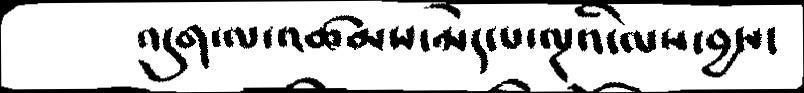འདུག་ལ་མཚམས་མེད་ལྔའི་ལས་བྱས་
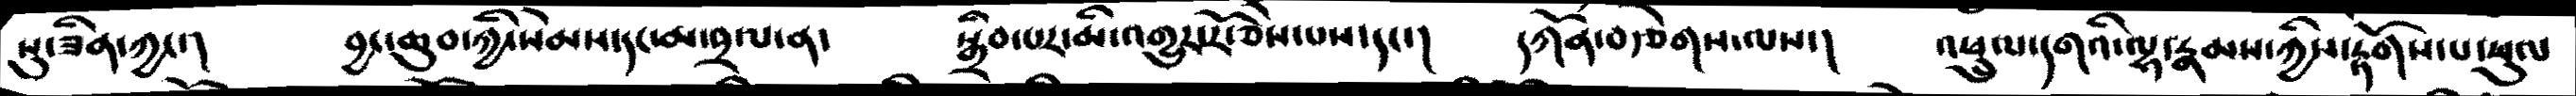སུ་ཟིན་ཀྱང་།     བྱང་ཆུབ་ཀྱི་སེམས་དང་མ་བྲལ་ན་      སྒྲིབ་པར་མི་འགྱུར་རོ་ཅེས་པས་དང་།    དཀོན་བརྩེགས་ལས་།  འཕྲུལ་དགའི་ལྷ་རྣམས་ཀྱིས་རྟོགས་པ་ཕུལ
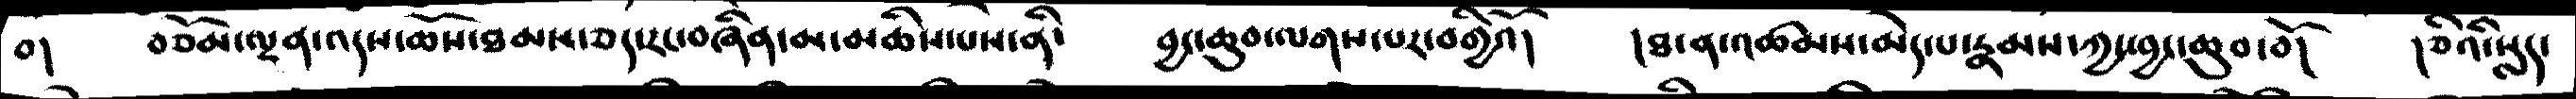བ།   བཅོམ་ལྡན་འདས་ཆོས་ཐམས་ཅད་རང་བཞིན་མ་མཆིས་པས་ནི་    བྱང་ཆུབ་ལགས་པར་བགྱིའོ།    །ཐ་ན་འཚམས་མེད་པ་རྣམས་ཀྱང་བྱང་ཆུབ་བོ།   །ཅིའི་སླད་
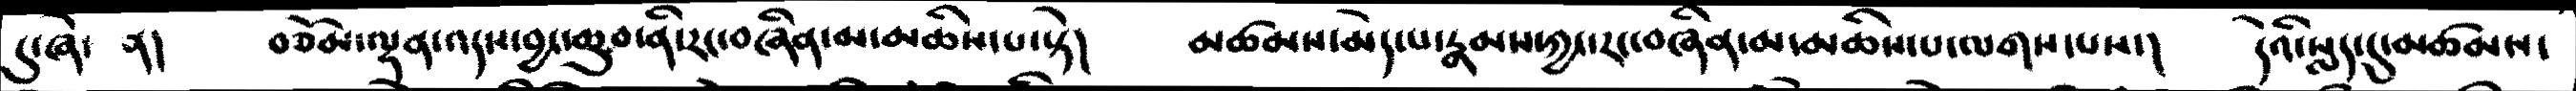དུ་ཞེ་  ན།   བཅོམ་ལྡན་འདས་བྱང་ཆུབ་ནི་རང་བཞིན་མཆིས་པ་སྟེ།    མཚམས་མེད་པ་རྣམས་ཀྱང་རང་བཞིན་མ་མཆིས་པ་ལགས་པས་།    དེའི་སླད་དུ་མཚམས་
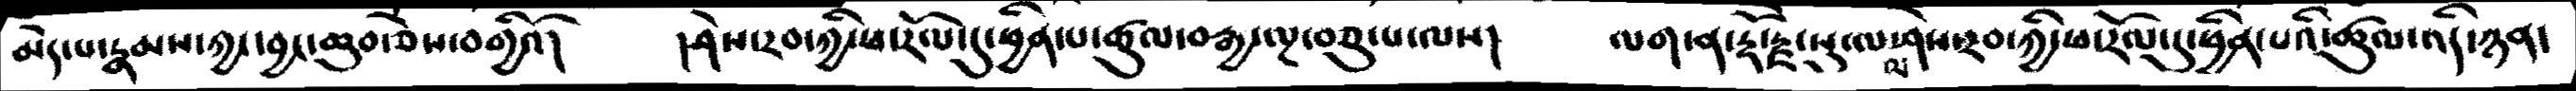མེད་པ་རྣམས་ཀྱང་བྱང་ཆུབ་ཅེས་བགྱིའོ།   །ཤེས་རབ་ཀྱི་ཕ་རོལ་དུ་ཕྱིན་པ་ཚུལ་བརྒྱ་ལྔ་བཅུ་པ་ལས།  ལག་ན་རྡོ་རྗེ་སུ་ལ་ལ་ཤེས་རབ་ཀྱི་ཕ་རོལ་དུ་ཕྱིན་པའི་ཚུལ་འདི་ཉན་
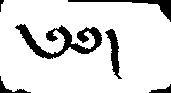༄༅།
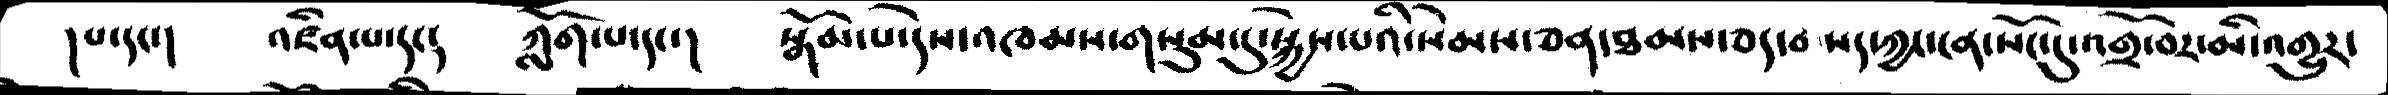།པ་དང་།   འཛིན་པ་དང་།   ཀློག་པ་དང་།    སྒོམ་པ་དེས་འཁམས་གསུམ་དུ་སྐྱེས་པའི་སེམས་ཅན་ཐམས་ཅད་བསད་ཀྱང་ངན་སོང་དུ་འགྲོ་བར་མི་འགྱུར་
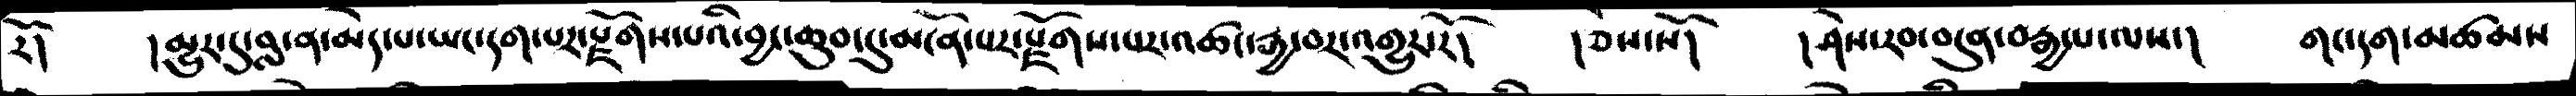རོ།  །མྱུར་དུ་བླ་ན་མེད་པ་ཡང་དག་པར་རྫོགས་པའི་བྱང་ཆུབ་དུ་མངོན་པར་རྫོགས་པར་འཚང་རྒྱ་བར་འགྱུར་རོ།      །ཅེས་སོ།   །ཤེས་རབ་བདུན་བརྒྱ་པ་ལས་།   གང་དག་མཚམས
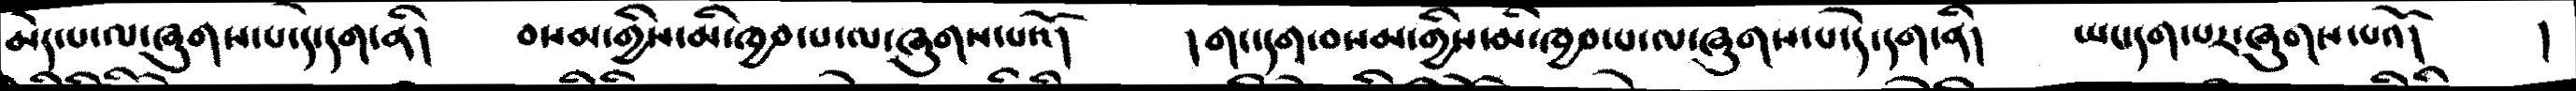མེད་པ་ལ་ཞུགས་པ་དེ་དག་ནི།    བསམ་གྱིས་མི་ཁྱབ་པ་ལ་ཞུགས་པའོ།     །གང་དག་བསམ་གྱིས་མི་ཁྱབ་པ་ལ་ཞུགས་པ་དེ་དག་ནི།   ཡང་དག་པར་ཞུགས་པའོ།    །
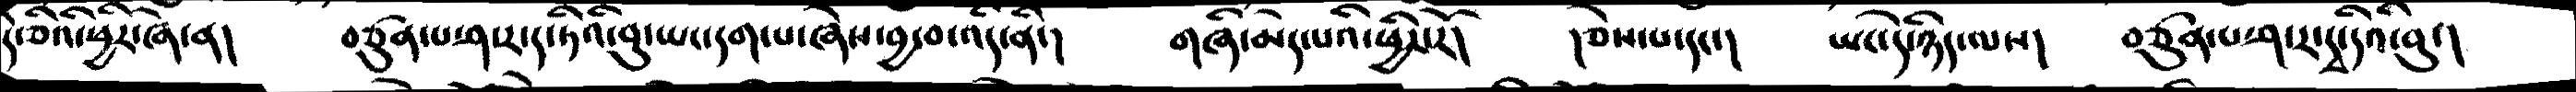དེ་ཅིའི་ཕྱིར་ཞེ་ན།    བཙུན་པ་ཤ་ར་ད་ཏིའི་བུ་ཡང་དག་པ་ཞེས་བྱ་བ་འདི་ནི་།   གཞི་མེད་པའི་ཕྱིར་རོ།   །ཅེས་པ་དང་།   ཡང་དེ་ཉིད་ལས།  བཙུན་པ་ཤ་ར་དྭ་དིའི་བུ་།
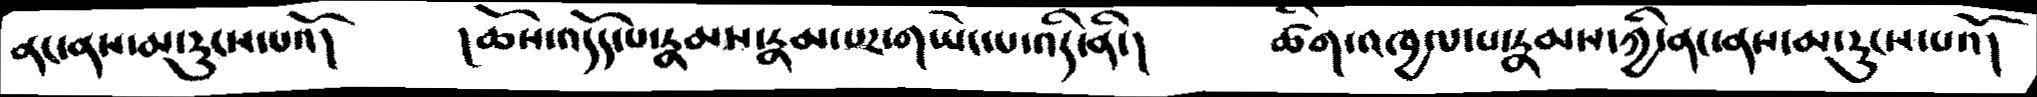ནང་ནས་མ་རུངས་པའོ།   །ཆོས་འདོད་པ་རྣམས་རྣམ་པར་གཡེང་པ་འདི་ནི་།    ཚིག་འཁྱལ་པ་རྣམས་ཀྱི་ནང་ནས་མ་རུངས་པའོ།
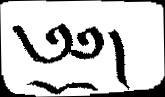༄༅།
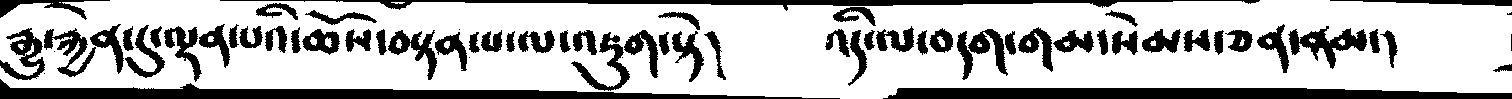རྒྱུ་རྐྱེན་དུ་ལྡན་པའི་ཆོས་བསྟན་པ་ལ་འཇུག་སྟེ།    འདི་ལ་བདག་གམ་སེམས་ཅན་ནམ་།
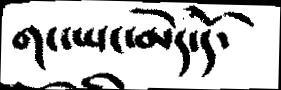གང་ཡང་མེད་དོ་
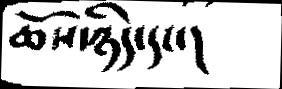ཆོས་ཉིད་དང་།
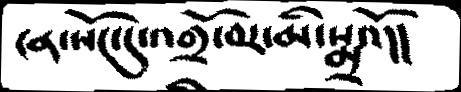ངན་སོང་དུ་འགྲོ་བར་མི་སྨྲའོ།།
